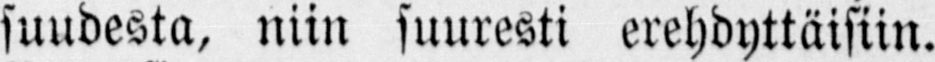suudesta, niin suuresti erehdyttäisiin.
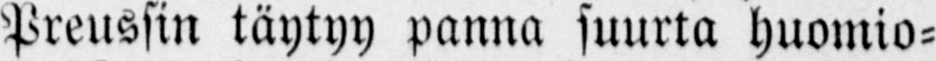Preussin täytyy panna suurta huomio-
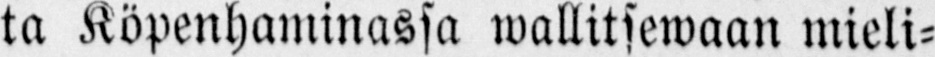ta Köpenhaminassa wallitsewaan mieli-
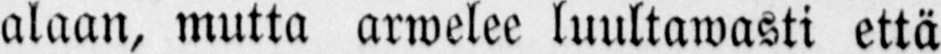alaan, mutta arwelee luultawasti että
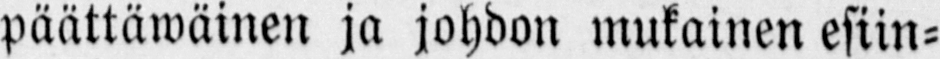päättäwäinen ja johdon mukainen esiin-
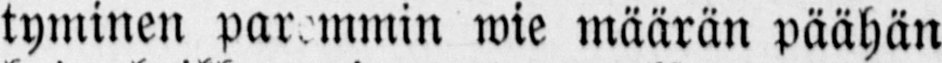tyminen paremmin wie määrän päähän
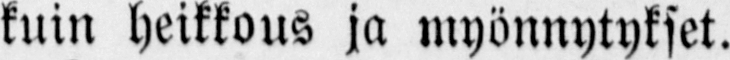kuin heikkous ja myönnytykset.
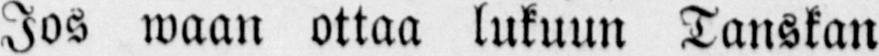Jos waan ottaa lukuun Tanskan
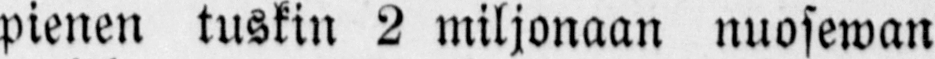pienen tuskin 2 miljonaan nuosewan
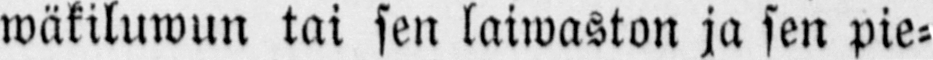wäkiluwun tai sen laiwaston ja sen pie-
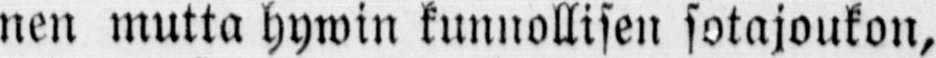nen mutta hywin kunnollisen sotajoukon,
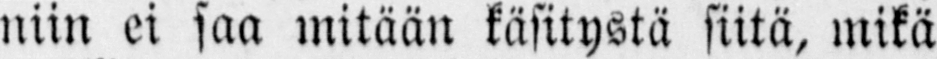niin ei saa mitään käsitystä siitä, mikä
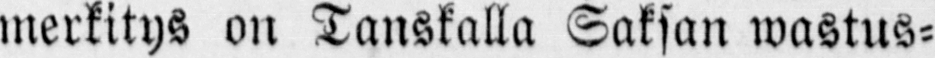merkitys on Tanskalla Saksan wastus-
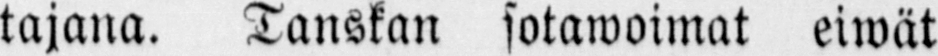tajana. Tanskan sotawoimat eiwät
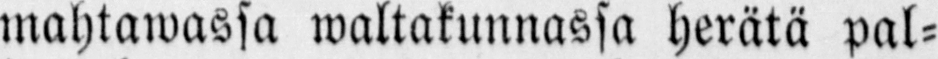mahtawassa waltakunnassa herätä pal-
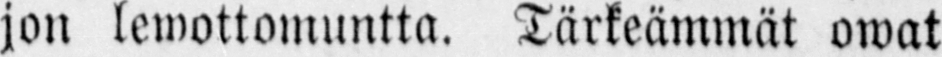jon lewottomuntta. Tärkeämmät owat
